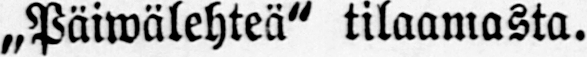„Päiwälehteä" tilaamasta.
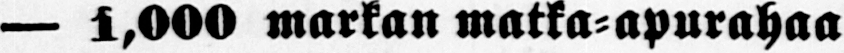— 1,000 markan matka-apurahaa
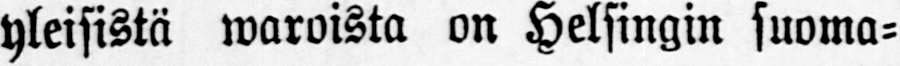yleisistä waroista on Helsingin suoma-
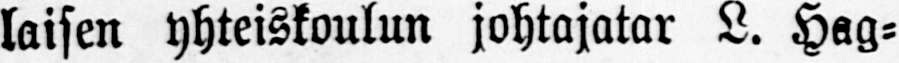laisen yhteiskoulun johtajatar L. Hag-
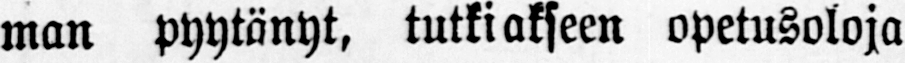man pyytänyt, tutkiakseen opetusoloja
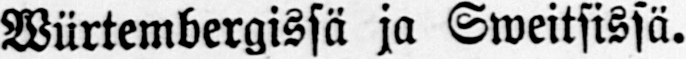Würtembergissä ja Sweitsissä.
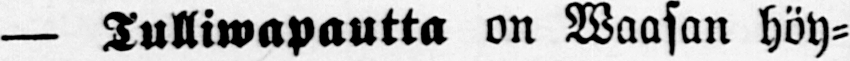— Tulliwapautta on Waasan höy-
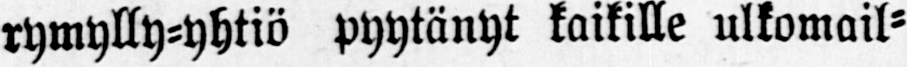rymylly-yhtiö pyytänyt kaikille ulkomail-
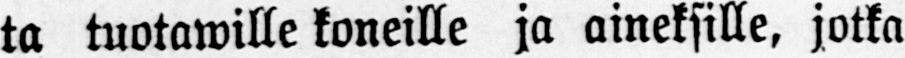ta tuotawille koneille ja aineksille, jotka
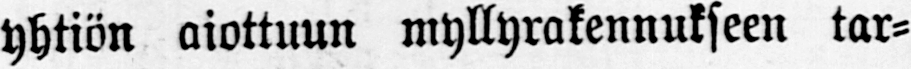yhtiön aiottuun myllyrakennukseen tar-
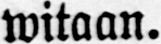witaan.
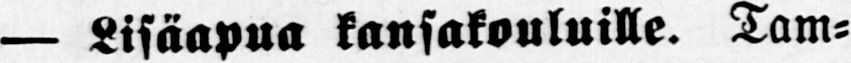— Lisäapua kansakouluille. Tam-
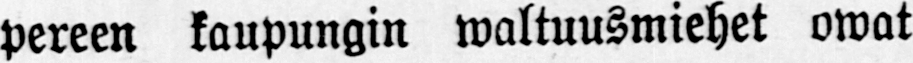pereen kaupungin waltuusmiehet owat
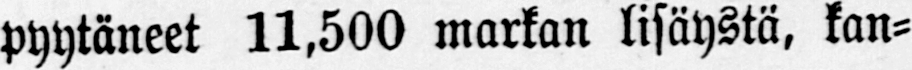pyytäneet 11,500 markan lisäystä, kan-
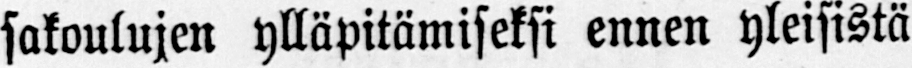sakoulujen ylläpitämiseksi ennen yleisistä
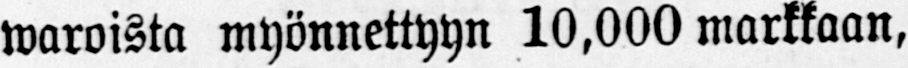waroista myönnettyyn 10,000 markkaan,
